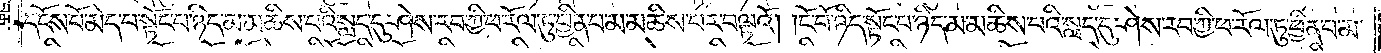དངོས་པོ་མེད་པ་སྟོང་པ་ཉིད་མ་མཆིས་པའི་སླད་དུ་ཤེས་རབ་ཀྱི་ཕ་རོལ་ཏུ་ཕྱིན་པ་མ་མཆིས་པར་བལྟའོ། །ངོ་བོ་ཉིད་སྟོང་པ་ཉིད་མ་མཆིས་པའི་སླད་དུ་ཤེས་རབ་ཀྱི་ཕ་རོལ་ཏུ་ཕྱིན་པ་མ་
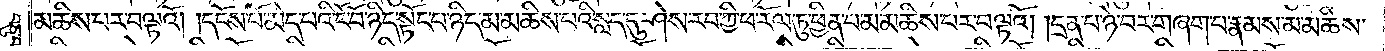མཆིས་པར་བལྟའོ། །དངོས་པོ་མེད་པའི་ངོ་བོ་ཉིད་སྟོང་པ་ཉིད་མ་མཆིས་པའི་སླད་དུ་ཤེས་རབ་ཀྱི་ཕ་རོལ་ཏུ་ཕྱིན་པ་མ་མཆིས་པར་བལྟའོ། །དྲན་པ་ཉེ་བར་གཞག་པ་རྣམས་མ་མཆིས་
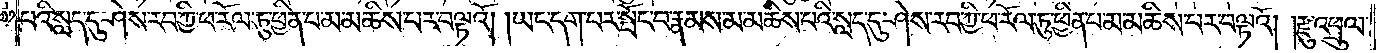པའི་སླད་དུ་ཤེས་རབ་ཀྱི་ཕ་རོལ་ཏུ་ཕྱིན་པ་མ་མཆིས་པར་བལྟའོ། །ཡང་དག་པར་སྤོང་བ་རྣམས་མ་མཆིས་པའི་སླད་དུ་ཤེས་རབ་ཀྱི་ཕ་རོལ་ཏུ་ཕྱིན་པ་མ་མཆིས་པར་བལྟའོ། །རྫུ་འཕྲུལ་
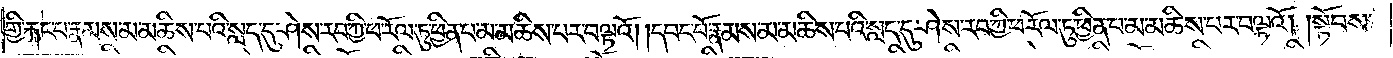གྱི་རྐང་པ་རྣམས་མ་མཆིས་པའི་སླད་དུ་ཤེས་རབ་ཀྱི་ཕ་རོལ་ཏུ་ཕྱིན་པ་མ་མཆིས་པར་བལྟའོ། །དབང་པོ་རྣམས་མ་མཆིས་པའི་སླད་དུ་ཤེས་རབ་ཀྱི་ཕ་རོལ་ཏུ་ཕྱིན་པ་མ་མཆིས་པར་བལྟའོ། །སྟོབས་
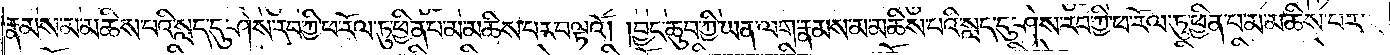རྣམས་མ་མཆིས་པའི་སླད་དུ་ཤེས་རབ་ཀྱི་ཕ་རོལ་ཏུ་ཕྱིན་པ་མ་མཆིས་པར་བལྟའོ། །བྱང་ཆུབ་ཀྱི་ཡན་ལག་རྣམས་མ་མཆིས་པའི་སླད་དུ་ཤེས་རབ་ཀྱི་ཕ་རོལ་ཏུ་ཕྱིན་པ་མ་མཆིས་པར་
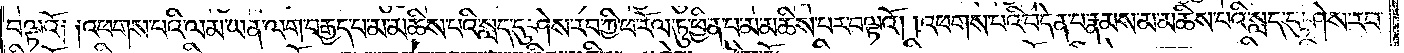བལྟའོ༑ ༑འཕགས་པའི་ལམ་ཡན་ལག་བརྒྱད་པ་མ་མཆིས་པའི་སླད་དུ་ཤེས་རབ་ཀྱི་ཕ་རོལ་ཏུ་ཕྱིན་པ་མ་མཆིས་པར་བལྟའོ། །འཕགས་པའི་བདེན་པ་རྣམས་མ་མཆིས་པའི་སླད་དུ་ཤེས་རབ་
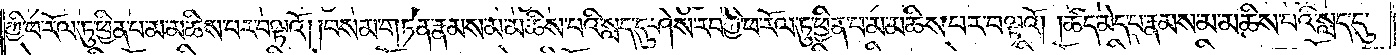ཀྱི་ཕ་རོལ་ཏུ་ཕྱིན་པ་མ་མཆིས་པར་བལྟའོ། །བསམ་གཏན་རྣམས་མ་མཆིས་པའི་སླད་དུ་ཤེས་རབ་ཀྱི་ཕ་རོལ་ཏུ་ཕྱིན་པ་མ་མཆིས་པར་བལྟའོ། །ཚད་མེད་པ་རྣམས་མ་མཆིས་པའི་སླད་དུ་
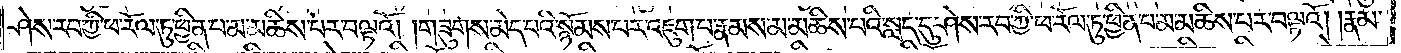ཤེས་རབ་ཀྱི་ཕ་རོལ་ཏུ་ཕྱིན་པ་མ་མཆིས་པར་བལྟའོ། །གཟུགས་མེད་པའི་སྙོམས་པར་འཇུག་པ་རྣམས་མ་མཆིས་པའི་སླད་དུ་ཤེས་རབ་ཀྱི་ཕ་རོལ་ཏུ་ཕྱིན་པ་མ་མཆིས་པར་བལྟའོ། །རྣམ་
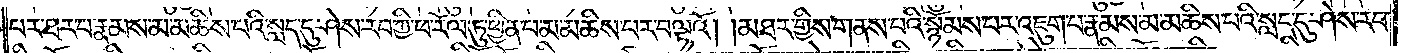པར་ཐར་པ་རྣམས་མ་མཆིས་པའི་སླད་དུ་ཤེས་རབ་ཀྱི་ཕ་རོལ་ཏུ་ཕྱིན་པ་མ་མཆིས་པར་བལྟའོ། །མཐར་གྱིས་གནས་པའི་སྙོམས་པར་འཇུག་པ་རྣམས་མ་མཆིས་པའི་སླད་དུ་ཤེས་རབ་
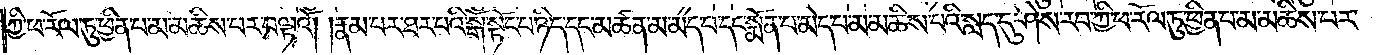ཀྱི་ཕ་རོལ་ཏུ་ཕྱིན་པ་མ་མཆིས་པར་བལྟའོ། །རྣམ་པར་ཐར་པའི་སྒོ་སྟོང་པ་ཉིད་དང་མཚན་མ་མེད་པ་དང་སྨོན་པ་མེད་པ་མ་མཆིས་པའི་སླད་དུ་ཤེས་རབ་ཀྱི་ཕ་རོལ་ཏུ་ཕྱིན་པ་མ་མཆིས་པར་
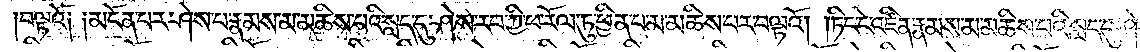བལྟའོ༑ ༑མངོན་པར་ཤེས་པ་རྣམས་མ་མཆིས་པའི་སླད་དུ་ཤེས་རབ་ཀྱི་ཕ་རོལ་ཏུ་ཕྱིན་པ་མ་མཆིས་པར་བལྟའོ། །ཏིང་ངེ་འཛིན་རྣམས་མ་མཆིས་པའི་སླད་དུ་ཤེས་
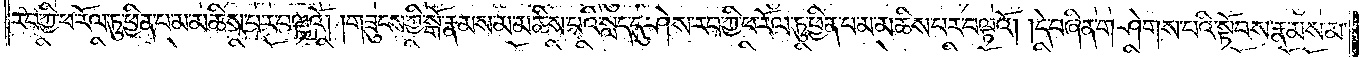རབ་ཀྱི་ཕ་རོལ་ཏུ་ཕྱིན་པ་མ་མཆིས་པར་བལྟའོ། །གཟུངས་ཀྱི་སྒོ་རྣམས་མ་མཆིས་པའི་སླད་དུ་ཤེས་རབ་ཀྱི་ཕ་རོལ་ཏུ་ཕྱིན་པ་མ་མཆིས་པར་བལྟའོ། །དེ་བཞིན་གཤེགས་པའི་སྟོབས་རྣམས་མ་
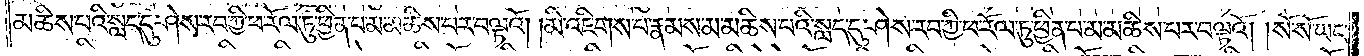མཆིས་པའི་སླད་དུ་ཤེས་རབ་ཀྱི་ཕ་རོལ་ཏུ་ཕྱིན་པ་མ་མཆིས་པར་བལྟའོ། །མི་འཇིགས་པ་རྣམས་མ་མཆིས་པའི་སླད་དུ་ཤེས་རབ་ཀྱི་ཕ་རོལ་ཏུ་ཕྱིན་པ་མ་མཆིས་པར་བལྟའོ། །སོ་སོ་ཡང་
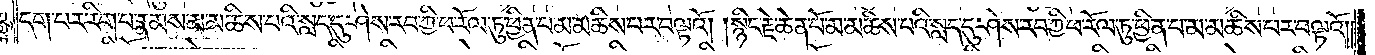དག་པར་རིག་པ་རྣམས་མ་མཆིས་པའི་སླད་དུ་ཤེས་རབ་ཀྱི་ཕ་རོལ་ཏུ་ཕྱིན་པ་མ་མཆིས་པར་བལྟའོ། །སྙིང་རྗེ་ཆེན་པོ་མ་མཆིས་པའི་སླད་དུ་ཤེས་རབ་ཀྱི་ཕ་རོལ་ཏུ་ཕྱིན་པ་མ་མཆིས་པར་བལྟའོ། །
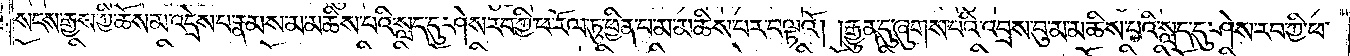སངས་རྒྱས་ཀྱི་ཆོས་མ་འདྲེས་པ་རྣམས་མ་མཆིས་པའི་སླད་དུ་ཤེས་རབ་ཀྱི་ཕ་རོལ་ཏུ་ཕྱིན་པ་མ་མཆིས་པར་བལྟའོ། །རྒྱུན་དུ་ཞུགས་པའི་འབྲས་བུ་མ་མཆིས་པའི་སླད་དུ་ཤེས་རབ་ཀྱི་ཕ་
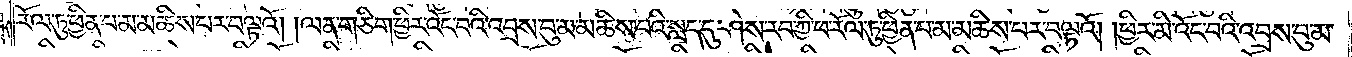རོལ་ཏུ་ཕྱིན་པ་མ་མཆིས་པར་བལྟའོ། །ལན་གཅིག་ཕྱིར་འོང་བའི་འབྲས་བུ་མ་མཆིས་པའི་སླད་དུ་ཤེས་རབ་ཀྱི་ཕ་རོལ་ཏུ་ཕྱིན་པ་མ་མཆིས་པར་བལྟའོ། །ཕྱིར་མི་འོང་བའི་འབྲས་བུ་མ་
